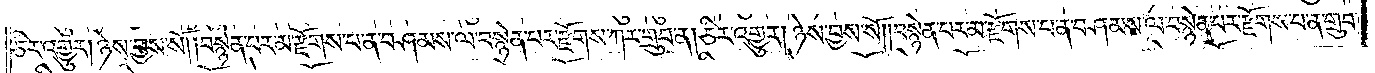ཅིར་འགྱུར། ཉེས་བྱས་སོ། །བསྙེན་པར་མ་རྫོགས་པ་ན་བཤམས་ལ་བསྙེན་པར་རྫོགས་ཀར་གྲུབ་ན། ཅིར་འགྱུར། ཉེས་བྱས་སོ། །བསྙེན་པར་མ་རྫོགས་པ་ན་བཤམས་ལ་བསྙེན་པར་རྫོགས་ན་གྲུབ་
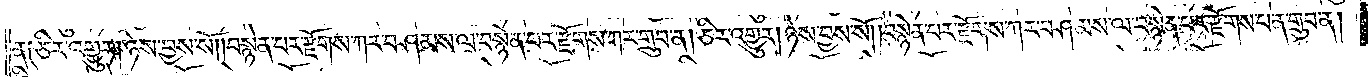ན༑ ཅིར་འགྱུར། ཉོས་བྱས་སོ། །བསྙེན་པར་རྫོགས་ཀར་བཤམས་ལ་བསྙེན་པར་རྫོགས་ཀར་གྲུབ་ན། ཅིར་འགྱུར། ཉེས་བྱས་སོ། །བསྙེན་པར་རྫོགས་ཀར་བཤམས་ལ་བསྙེན་པར་རྫོགས་པ་ན་གྲུབ་ན།
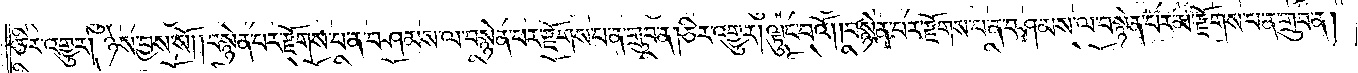ཅིར་འགྱུར། ཉེས་བྱས་སོ། །བསྙེན་པར་རྫོགས་པ་ན་བཤམས་ལ་བསྙེན་པར་རྫོགས་པ་ན་གྲུབ་ན། ཅིར་འགྱུར། ལྟུང་བའོ། །བསྙེན་པར་རྫོགས་པ་ན་བཤམས་ལ་བསྙེན་པར་མ་རྫོགས་པ་ན་གྲུབ་ན།
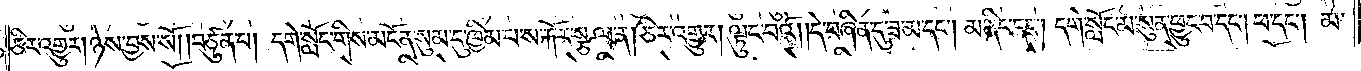ཅིར་འགྱུར། ཉེས་བྱས་སོ། །བཙུན་པ། དགེ་སློང་གིས་མངོན་སུམ་དུ་ཁྱིམ་པ་ས་རྐོར་སྩལ་ན། ཅིར་འགྱུར། ལྟུང་བའོ། །དེ་བཞིན་དུ་ཟ་མ་དང༌། མ་ནིང་དང༌། དགེ་སློང་མ་སུན་ཕྱུང་བ་དང༌། ཕ་དང༌། མ་
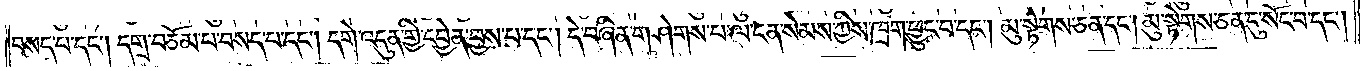བསད་པ་དང༌། དགྲ་བཅོམ་པ་བསད་པ་དང༌། དགེ་འདུན་གྱི་དབྱེན་བྱས་པ་དང༌། དེ་བཞིན་གཤེགས་པ་ལ་ངན་སེམས་ཀྱིས་ཁྲག་ཕྱུང་བ་དང༌། མུ་སྟེགས་ཅན་དང༌། མུ་སྟེགས་ཅན་དུ་སོང་བ་དང༌།
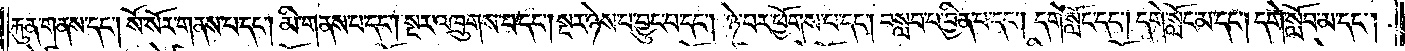རྐུན་གནས་དང༌། སོ་སོར་གནས་པ་དང༌། མི་གནས་པ་དང༌། སྔར་འཁྲུགས་པ་དང༌། སྔར་ཉེས་པ་བྱུང་བ་དང༌། ཉེས་བར་ཕྱོགས་པ་དང༌། བསླབ་པ་བྱིན་པ་དང༌། དགེ་སློང་དང༌། དགེ་སློང་མ་དང༌། དགེ་སློབ་མ་དང༌།
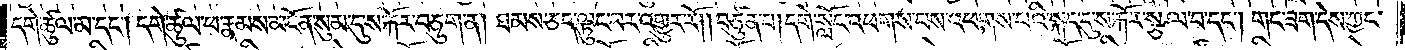དགེ་ཚུལ་མ་དང༌། དགེ་ཚུལ་ཕ་རྣམས་མངོན་སུམ་དུ་ས་རྐོར་བཅུག་ན། ཐམས་ཅད་ལྟུང་བར་འགྱུར་རོ། །བཙུན་པ། དགེ་སློང་འཕགས་པས་འཕགས་པའི་སྐད་དུ་ས་རྐོར་སྩལ་བ་དང༌། གང་ཟག་དེས་ཀྱང་
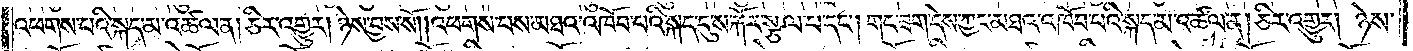འཕགས་པའི་སྐད་མ་འཚལ་ན། ཅིར་འགྱུར། ཉེས་བྱས་སོ། །འཕགས་པས་མཐའ་འཁོབ་པའི་སྐད་དུ་ས་རྐོར་སྩལ་པ་དང༌། གང་ཟག་དེས་ཀྱང་མཐའ་འཁོབ་པའི་སྐད་མ་འཚལ་ན། ཅིར་འགྱུར། ཉེས་
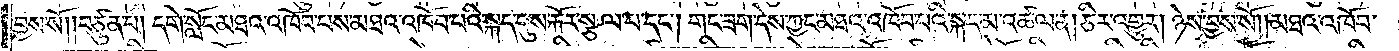བྱས་སོ། །བཙུན་པ། དགེ་སློང་མཐའ་འཁོབ་པས་མཐའ་འཁོབ་པའི་སྐད་དུ་ས་རྐོར་སྩལ་པ་དང༌། གང་ཟག་དེས་ཀྱང་མཐའ་འཁོབ་པའི་སྐད་མ་འཚལ་ན། ཅིར་འགྱུར། ཉེས་བྱས་སོ། །མཐའ་འཁོབ་
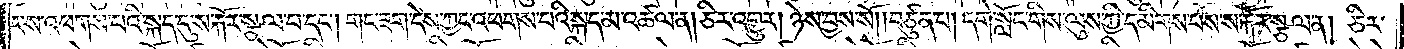པས་འཕགས་པའི་སྐད་དུ་ས་རྐོར་སྩལ་པ་དང༌། གང་ཟག་དེས་ཀྱང་འཕགས་པའི་སྐད་མ་འཚལ་ན། ཅིར་འགྱུར། ཉེས་བྱས་སོ། །བཙུན་པ། དགེ་སློང་གིས་ལུས་ཀྱི་དམིགས་པས་ས་རྐོར་སྩལ་ན། ཅིར་
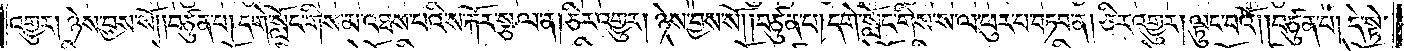འགྱུར། ཉེས་བྱས་སོ། །བཙུན་པ། དགེ་སློང་གིས་མ་འཐས་པའི་ས་རྐོར་སྩལ་ན། ཅིར་འགྱུར། ཉེས་བྱས་སོ། །བཙུན་པ། དགེ་སློང་གིས་ས་ལ་ཕུར་པ་བཏབ་ན། ཅིར་འགྱུར། ལྟུང་བའོ། །བཙུན་པ། དེ་སྟེ་
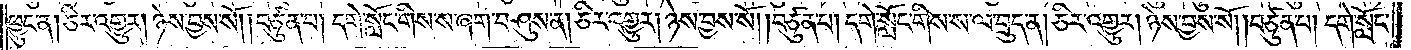ཕྱུང་ན། ཅིར་འགྱུར། ཉེས་བྱས་སོ༎ བཙུན་པ། དགེ་སློང་གིས་ས་ཞག་བཤུས་ན། ཅིར་འགྱུར། ཉེས་བྱས་སོ། །བཙུན་པ། དགེ་སློང་གིས་ས་ལ་བྲུད་ན། ཅིར་འགྱུར། ཉེས་བྱས་སོ། །བཙུན་པ། དགེ་སློང་
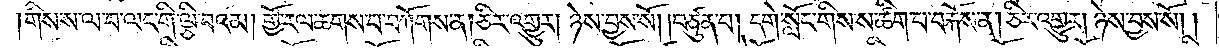།གིས་ས་ལ་བ་ལང་གི་ལྕི་བའམ། གྱོ་རལ་ཆགས་པ་བཀོགས་ན། ཅིར་འགྱུར། ཉེས་བྱས་སོ། །བཙུན་པ། དགེ་སློང་གིས་ཚིག་པ་བརྐོས་ན། ཅིར་འགྱུར། ཉེས་བྱས་སོ། །
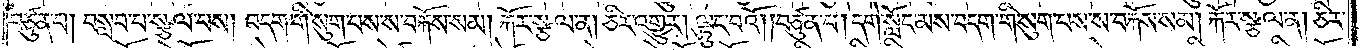བཙུན་པ། བསླབ་པ་སྩལ་པས། བདག་གིས་སུག་པས་ས་བརྐོས་སམ། རྐོར་སྩལ་ན། ཅིར་འགྱུར། ལྟུང་བའོ། །བཙུན་པ། དགེ་སློང་མས་བདག་གིས་སུག་པས་ས་བརྐོས་སམ། རྐོར་སྩལ་ན། ཅིར་
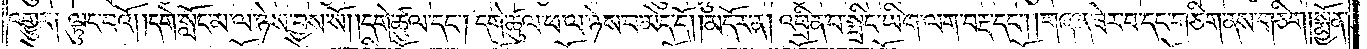འགྱུར། ལྟུང་བའོ། །དགེ་སློང་མ་ལ་ཉེས་བྱས་སོ། །དགེ་ཚུལ་དང༌། དགེ་ཚུལ་ཕ་ལ་ཉེས་པ་མེད་དོ།    །མདོར་ན། འཕྲིན་པ་སྤྲིང་ཡིག་ལག་བརྡ་དང༌། །གཞན་ཟེར་བ་དང་གཅིག་ནས་གཅིག །སྨྱོན་
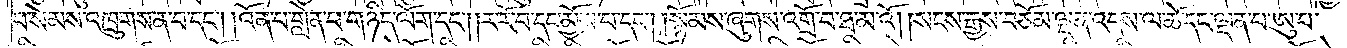པ་སེམས་འཁྲུགས་ན་བ་དང༌། འོན་པ་གླེན་པ་གཉིད་ལོག་དང༌། །ར་རོ་བ་དང་མྱོས་པ་དང༌། །སྙོམས་ཞུགས་འགྲོ་བ་ཐ་མའོ། །སངས་རྒྱས་བཅོམ་ལྡན་འདས་ལ་ཚེ་དང་ལྡན་པ་ཨུ་པ་
